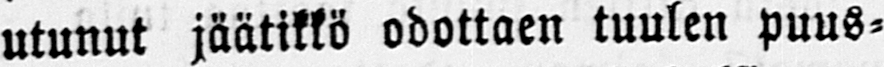utunut jäätikkö odottaen tuulen puus-
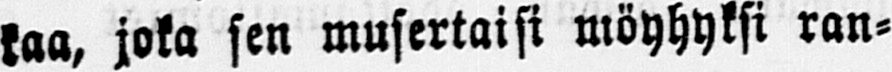kaa, joka sen musertaisi möyhyksi ran-
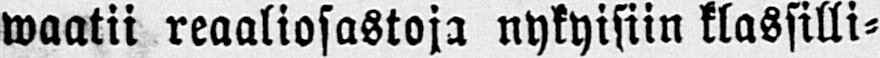waatii reaaliosastoja nykyisiin klassilli-
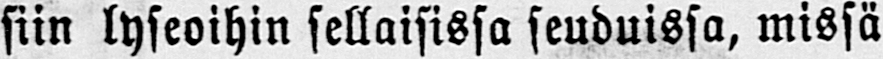siin lyseoihin sellaisissa seuduissa, missä
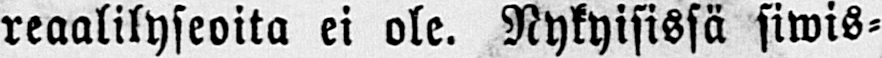reaalilyseoita ei ole. Nykyisissä siwis-
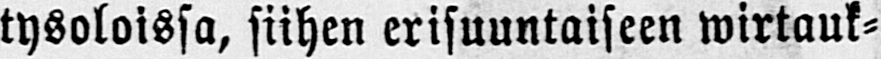tysoloissa, siihen erisuuntaiseen wirtauk-
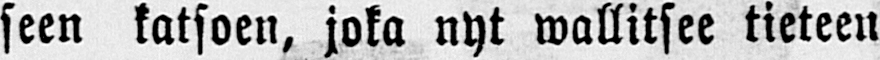seen katsoen, joka nyt wallitsee tieteen
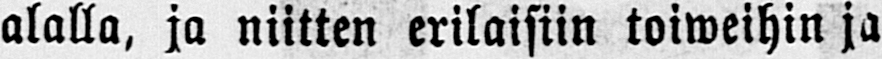alalla, ja niitten erilaisiin toiweihin ja
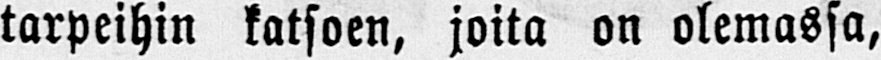tarpeihin katsoen, joita on olemassa,
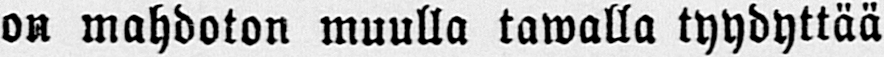on mahdoton muulla tawalla tyydyttää
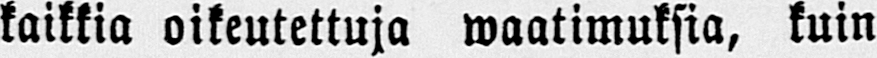kaikkia oikeutettuja waatimuksia, kuin
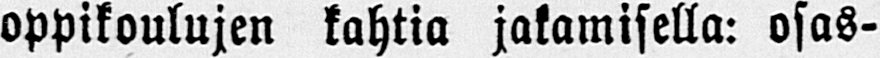oppikoulujen kahtia jakamisella: osas-
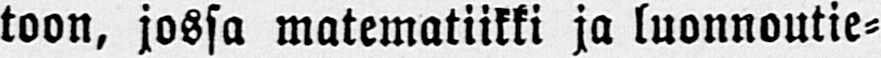toon, jossa matematiikki ja luonnoutie-
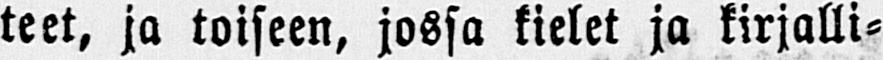teet, ja toiseen, jossa kielet ja kirjalli-
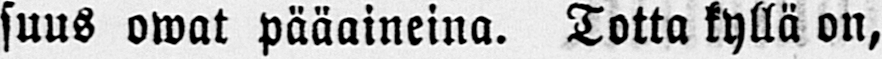suus owat pääaineina. Totta kyllä on,
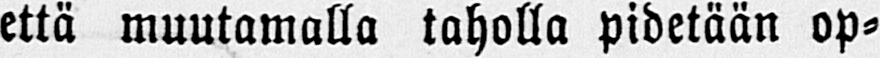että muutamalla taholla pidetään op-
